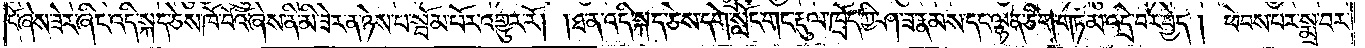དོ་ཞེས་ཟེར་ཞིང་འདི་སྐད་ཅེས་ཁོ་བོའོ་ཞེས་ནི་མི་ཟེར་ན་ཉེས་པ་སྤོམ་པོར་འགྱུར་རོ། །ཐ་ན་འདི་སྐད་ཅེས་དགེ་སློང་གང་རྡུལ་ཁྲོད་ཀྱི་ཤ་ཟ་རྣམས་དང་ལྷན་ཅིག་གཏམ་འདྲེ་བར་བྱེད། ཕེབས་པར་སྨྲ་བར་
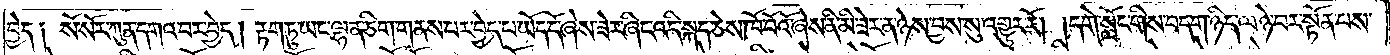བྱེད༑ སོ་སོར་ཀུན་དགའ་བར་བྱེད། རྟག་ཏུ་ཡང་ལྷན་ཅིག་གནས་པར་བྱེད་པ་ཡོད་དོ་ཞེས་ཟེར་ཞིང་འདི་སྐད་ཅེས་ཁོ་བོའོ་ཞེས་ནི་མི་ཟེར་ན་ཉེས་བྱས་སུ་འགྱུར་རོ། །དགེ་སློང་གིས་བདག་ཉིད་ལ་ཉེ་བར་སྟོན་པས་
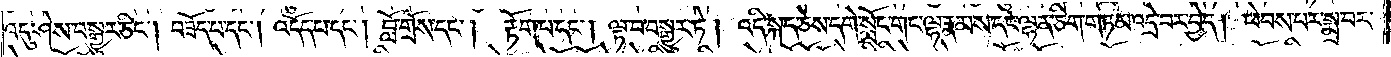འདུ་ཤེས་བསྒྱུར་ཅིང༌། བཟོད་པ་དང༌། འདོད་པ་དང༌། བློ་གྲོས་དང༌། རྟོག་པ་དང༌། ལྟ་བ་བསྒྱུར་ཏེ། འདི་སྐད་ཅེས་དགེ་སློང་གང་ལྷ་རྣམས་དང་ལྷན་ཅིག་གཏམ་འདྲེ་བར་བྱེད། ཕེབས་པར་སྨྲ་བར་
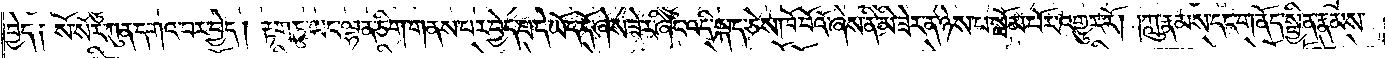བྱེད༑ སོ་སོར་ཀུན་དགའ་བར་བྱེད། རྟག་ཏུ་ཡང་ལྷན་ཅིག་གནས་པར་བྱེད་པ་དེ་ཡོད་དོ་ཞེས་ཟེར་ཞིང་འདི་སྐད་ཅེས་ཁོ་བོའོ་ཞེས་ནི་མི་ཟེར་ན་ཉེས་པ་སྦོམ་པོར་འགྱུར་རོ། །ཀླུ་རྣམས་དང་གནོད་སྦྱིན་རྣམས་
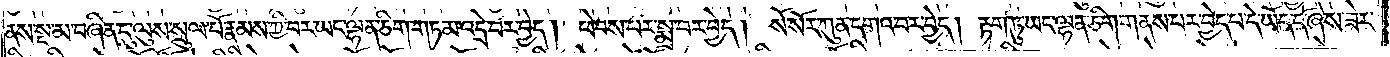ནས་སྔ་མ་བཞིན་དུ་ལུས་སྲུལ་པོ་རྣམས་ཀྱི་བར་ཡང་ལྷན་ཅིག་གཏམ་འདྲེ་བར་བྱེད། ཕེབས་པར་སྨྲ་བར་བྱེད། སོ་སོར་ཀུན་དགའ་བར་བྱེད། རྟག་ཏུ་ཡང་ལྷན་ཅིག་གནས་པར་བྱེད་པ་དེ་ཡོད་དོ་ཞེས་ཟེར་
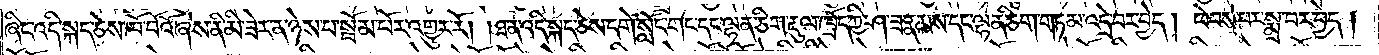ཞིང་འདི་སྐད་ཅེས་ཁོ་བོའོ་ཞེས་ནི་མི་ཟེར་ན་ཉེས་པ་སྦོམ་པོར་འགྱུར་རོ། །ཐ་ན་འདི་སྐད་ཅེས་དགེ་སློང་གང་དང་ལྷན་ཅིག་རྡུལ་ཁྲོད་ཀྱི་ཤ་ཟ་རྣམས་དང་ལྷན་ཅིག་གཏམ་འདྲེ་བར་བྱེད། ཕེབས་པར་སྨྲ་བར་བྱེད། །
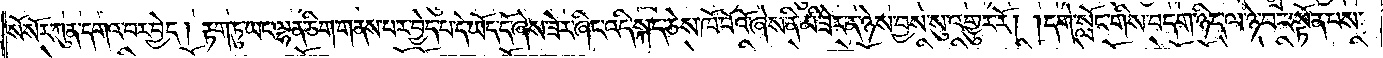སོ་སོར་ཀུན་དགའ་བར་བྱེད། རྟག་ཏུ་ཡང་ལྷན་ཅིག་གནས་པར་བྱེད་པ་དེ་ཡོད་དོ་ཞེས་ཟེར་ཞིང་འདི་སྐད་ཅེས་ཁོ་བོའོ་ཞེས་ནི་མི་ཟེར་ན་ཉེས་བྱས་སུ་འགྱུར་རོ། །དགེ་སློང་གི་བདག་ཉིད་ལ་ཉེ་བར་སྟོན་པས་
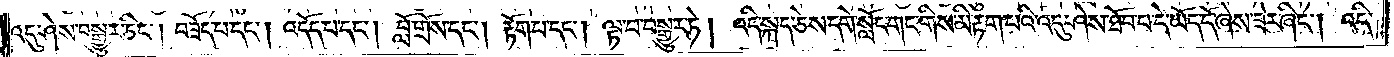འདུ་ཤེས་བསྒྱུར་ཅིང༌། བཟོད་པ་དང༌། འདོད་པ་དང༌། བློ་གྲོས་དང༌། རྟོག་པ་དང༌། ལྟ་བ་བསྒྱུར་ཏེ། འདི་སྐད་ཅེས་དགེ་སློང་གང་གིས་མི་རྟག་པའི་འདུ་ཤེས་ཐོབ་པ་དེ་ཡོད་དོ་ཞེས་ཟེར་ཞིང༌། འདི་
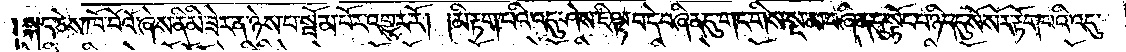སྐད་ཅེས་ཁོ་བོའོ་ཞེས་ནི་མི་ཟེར་ན་ཉེས་པ་སྦོམ་པོར་འགྱུར་རོ། །མི་རྟག་པའི་འདུ་ཤེས་ཇི་ལྟ་བ་དེ་བཞིན་དུ་གང་གིས་སྔ་མ་བཞིན་དུ་སྟོང་པ་ཉིད་དུ་སོ་སོར་རྟོག་པའི་འདུ་
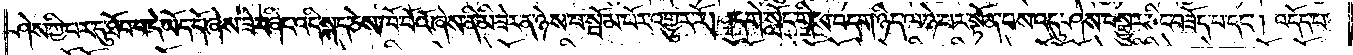ཤེས་ཀྱི་བར་དུ་ཐོབ་པ་དེ་ཡོད་དོ་ཞེས་ཟེར་ཞིང་འདི་སྐད་ཅེས་ཁོ་བོའོ་ཞེས་ནི་མི་ཟེར་ན་ཉེས་པ་སྦོམ་པོར་འགྱུར་རོ། །དགེ་སློང་གིས་བདག་ཉིད་ལ་ཉེ་པར་སྟོན་པས་འདུ་ཤེས་བསྒྱུར་ཅིང་བཟོད་པ་དང༌། འདོད་པ་
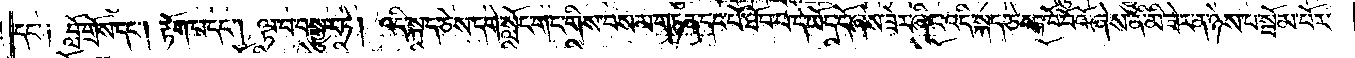དང༌། བློ་གྲོས་དང༌། རྟོག་པ་དང༌། ལྟ་བ་བསྒྱུར་ཏེ། འདི་སྐད་ཅེས་དགེ་སློང་གང་གིས་བསམ་གཏན་དང་པོ་ཐོབ་པ་དེ་ཡོད་དོ་ཞེས་ཟེར་ཞིང་འདི་སྐད་ཅེས་ཁོ་བོའོ་ཞེས་ནི་མི་ཟེར་ན་ཉེས་པ་སྦོམ་པོར་
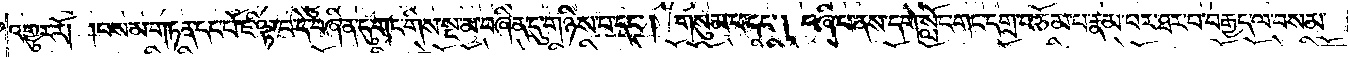འགྱུར་རོ། །བསམ་གཏན་དང་པོ་ཇི་ལྟ་བ་དེ་བཞིན་དུ་གང་གིས་སྔ་མ་བཞིན་དུ་གཉིས་པ་དང༌། གསུམ་པ་དང༌། བཞི་པ་ནས་དགེ་སློང་གང་དགྲ་བཅོམ་པ་རྣམ་པར་ཐར་པ་བརྒྱད་ལ་བསམ་
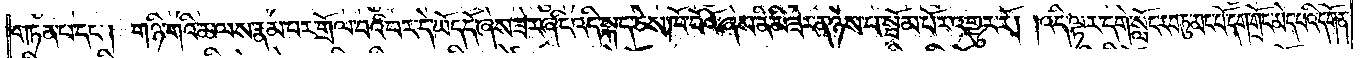གཏན་པ་དང༌། གཉི་གའི་ཆ་ལས་རྣམ་པར་གྲོལ་བའི་བར་དེ་ཡོད་དོ་ཞེས་ཟེར་ཞིང་འདི་སྐད་ཅེས་ཁོ་བོའོ་ཞེས་ནི་མི་ཟེར་ན་ཉེས་པ་སྦོམ་པོར་འགྱུར་རོ། །འདི་ལྟར་དགེ་སློང་རབ་ཏུ་མང་པོ་དག་གྲོང་མེད་པའི་དགོན་
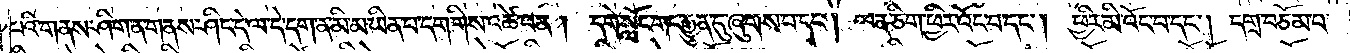པའི་གནས་ཤིག་ན་གནས་ཤིང་དེ་ལ་དེ་དག་ན་མི་མ་ཡིན་པ་དག་གིས་འཚེ་བ་ན། དགེ་སློང་གང་རྒྱུན་དུ་ཞུགས་པ་དང༌། ལན་ཅིག་ཕྱིར་འོང་བ་དང༌། ཕྱིར་མི་འོང་བ་དང༌། དགྲ་བཅོམ་པ་
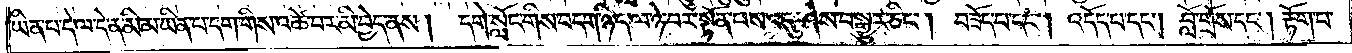ཡིན་པ་དེ་ལ་དེ་ན་མི་མ་ཡིན་པ་དག་གིས་འཚེ་བར་མི་བྱེད་ནས། དགེ་སློང་གིས་བདག་ཉིད་ལ་ཉེ་བར་སྟོན་པས་འདུ་ཤེས་བསྒྱུར་ཅིང༌། བཟོད་པ་དང༌། འདོད་པ་དང༌། བློ་གྲོས་དང༌། རྟོག་པ་
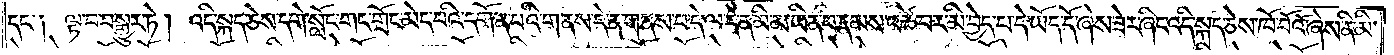དང༌། ལྟ་བ་བསྒྱུར་ཏེ། འདི་སྐད་ཅེས་དགེ་སློང་གང་གྲོང་མེད་པའི་དགོན་པའི་གནས་དེ་ན་གནས་པ་དེ་ལ་དེ་ན་མི་མ་ཡིན་པ་རྣམས་འཚེ་བར་མི་བྱེད་པ་དེ་ཡོད་དོ་ཞེས་ཟེར་ཞིང་འདི་སྐད་ཅེས་ཁོ་བོའོ་ཞེས་ནི་མི་
